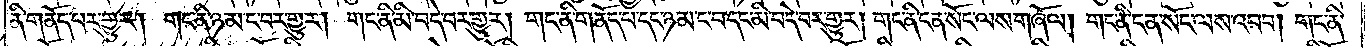ནི་གནོད་པར་གྱུར། གང་ནི་ཉམ་ང་བར་གྱུར། གང་ནི་མི་བདེ་བར་གྱུར། གང་ནི་གནོད་པ་དང་ཉམ་ང་བ་དང་མི་བདེ་བར་གྱུར། གང་ནི་ངན་སོང་ལས་གཞོལ། གང་ནི་ངན་སོང་ལས་འབབ། གང་ནི་
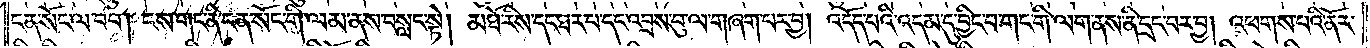ངན་སོང་ལ་བབ། ངས་གང་ནི་ངན་སོང་གི་ལམ་ནས་བསླང་སྟེ། མཐོ་རིས་དང་ཐར་པ་དང་འབྲས་བུ་ལ་གཞག་པར་བྱ། འདོད་པའི་འདམ་དུ་བྱིང་བ་གང་གི་ལག་ནས་ནི་དྲང་བར་བྱ། འཕགས་པའི་ནོར་
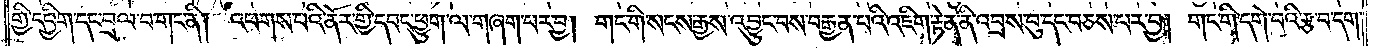གྱི་དབྱིག་དང་བྲལ་བ་གང་ནི། འཕགས་པའི་ནོར་གྱི་དབང་ཕྱུག་ལ་གཞག་པར་བྱ། གང་གི་སངས་རྒྱས་འབྱུང་བས་བརྒྱན་པའི་འཇིག་རྟེན་ནི་འབྲས་བུ་དང་བཅས་པར་བྱ། གང་གི་དགེ་བའི་རྩ་བ་དག་
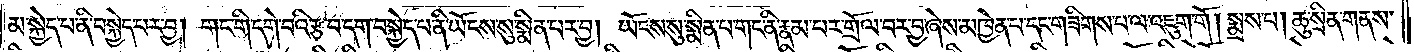མ་སྐྱེད་པ་ནི་བསྐྱེད་པར་བྱ། གང་གི་དགེ་བའི་རྩ་བ་དག་བསྐྱེད་པ་ནི་ཡོངས་སུ་སྨིན་པར་བྱ། ཡོངས་སུ་སྨིན་པ་གང་ནི་རྣམ་པར་གྲོལ་བར་བྱ་ཞེས་མཁྱེན་པ་དང་གཟིགས་པ་ལ་འཇུག་གོ། སྨྲས་པ། ཆུ་སྲིན་གནས་
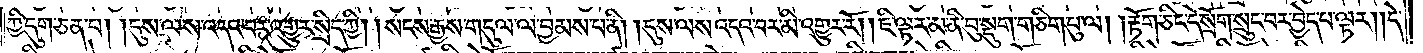ཀྱི་དུག་ཅན་པ། །དུས་ལས་འདའ་བར་འགྱུར་སྲིད་ཀྱི། །སངས་རྒྱས་གདུལ་ལ་བྱམས་པ་ནི། །དུས་ལས་འདའ་བར་མི་འགྱུར་རོ། །ཇི་ལྟར་མ་ནི་བུ་སྡུག་གཅིག་པུ་ལ། །རྟོག་ཅིང་དེ་སྲོག་སྲུང་བར་བྱེད་པ་ལྟར། །དེ་
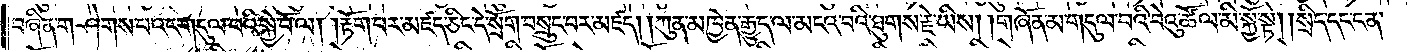བཞིན་གཤེགས་པ་འང་གདུལ་བའི་སྐྱེ་བོ་ལ། །རྟོག་པར་མཛད་ཅིང་དེ་སྲོག་བསྲུང་བར་མཛད། །ཀུན་མཁྱེན་རྒྱུད་ལ་མངའ་བའི་ཐུགས་རྗེ་ཡིས། །གཞོན་མ་གདུལ་བའི་བེའུ་ཚོལ་མི་སྐྱོ་སྟེ། །སྲིད་དང་ངན་
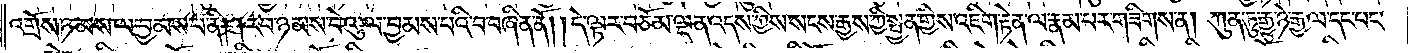འགྲོས་ཉམས་ལ་བྱམས་པ་ནི། །རབ་ཉམས་བེའུ་ལ་བྱམས་པའི་བ་བཞིན་ནོ། །དེ་ལྟར་བཅོམ་ལྡན་འདས་ཀྱིས་སངས་རྒྱས་ཀྱི་སྤྱན་གྱིས་འཇིག་རྟེན་ལ་རྣམ་པར་གཟིགས་ན། ཀུན་ཏུ་རྒྱུ་ཉེ་རྒྱལ་དང་པང་
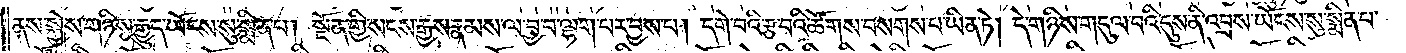ནས་སྐྱེས་གཉིས་རྒྱུད་ཡོངས་སུ་སྨིན་པ། སྔོན་གྱི་སངས་རྒྱས་རྣམས་ལ་བྱ་བ་ལྷག་པར་བྱས་པ། དགེ་བའི་རྩ་བའི་ཚོགས་བསགས་པ་ཡིན་ཏེ། དེ་གཉིས་གདུལ་བའི་དུས་ནི་འབྲས་ཡོངས་སུ་སྨིན་པ་
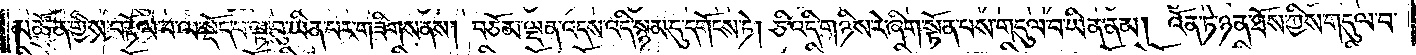མཚོན་གྱིས་བརྟོལ་བ་ལ་སྡོད་པ་ལྟ་བུ་ཡིན་པར་གཟིགས་ནས། བཅོམ་ལྡན་འདས་འདི་སྙམ་དུ་དགོངས་ཏེ། ཅི་འདི་གཉིས་རེ་ཞིག་སྟོན་པས་གདུལ་བ་ཡིན་ནམ། འོན་ཏེ་ཉན་ཐོས་ཀྱིས་གདུལ་བ་
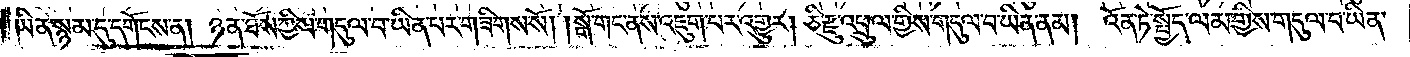ཡིན་སྙམ་དུ་དགོངས་ན། ཉན་ཐོས་ཀྱིས་གདུལ་བ་ཡིན་པར་གཟིགས་སོ། །སྒོ་གང་ནས་འཇུག་པར་འགྱུར། ཅི་རྫུ་འཕྲུལ་གྱིས་གདུལ་བ་ཡིན་ནམ། འོན་ཏེ་སྤྱོད་ལམ་གྱིས་གདུལ་བ་ཡིན་
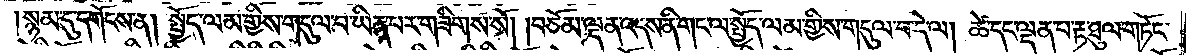སྙམ་དུ་དགོངས་ན། སྤྱོད་ལམ་གྱིས་གདུལ་བ་ཡིན་པར་གཟིགས་སོ། །བཅོམ་ལྡན་འདས་ནི་གང་ལ་སྤྱོད་ལམ་གྱིས་གདུལ་བ་དེ་ལ། ཚེ་དང་ལྡན་པ་རྟ་ཐུལ་གཏོང་
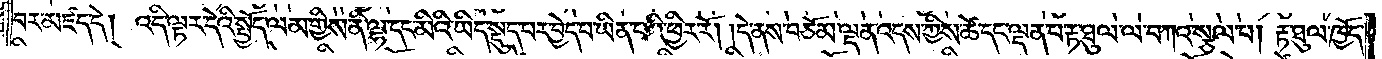བར་མཛད་དེ། འདི་ལྟར་དེའི་སྤྱོད་ལམ་གྱིས་ནི་ལྷ་དང་མིའི་ཡིད་སྡུད་པར་བྱེད་པ་ཡིན་པའི་ཕྱིར་རོ། །དེ་ནས་བཅོམ་ལྡན་འདས་ཀྱིས་ཚེ་དང་ལྡན་པ་རྟ་ཐུལ་ལ་བཀའ་སྩལ་པ། རྟ་ཐུལ་ཁྱོད་
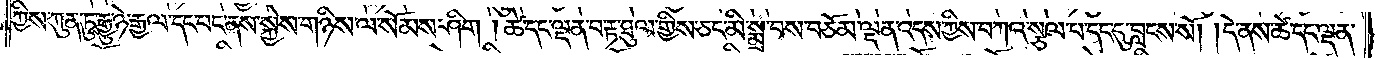ཀྱིས་ཀུན་ཏུ་རྒྱུ་ཉེ་རྒྱལ་དང་པང་ནས་སྐྱེས་གཉིས་ལ་སོམས་ཤིག །ཚེ་དང་ལྡན་བ་རྟ་ཐུལ་གྱིས་ཅང་མི་སྨྲ་བས་བཅོམ་ལྡན་འདས་ཀྱིས་བཀའ་སྩལ་པ་དང་དུ་བླངས་སོ། །དེ་ནས་ཚེ་དང་ལྡན་
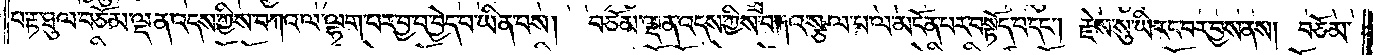པ་རྟ་ཐུལ་བཅོམ་ལྡན་འདས་ཀྱིས་བཀའ་ལ་ལྷག་པར་བྱ་བ་བྱེད་པ་ཡིན་པས། བཅོམ་ལྡན་འདས་ཀྱིས་བཀའ་སྩལ་པ་ལ་མངོན་པར་བསྟོད་པ་དང༌། རྗེས་སུ་ཡི་རང་བར་བྱས་ནས། བཅོམ་
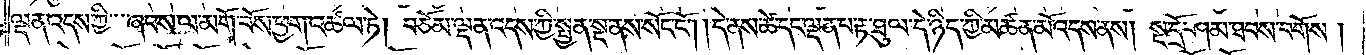ལྡན་འདས་ཀྱི་ཞབས་ལ་མགོ་བོས་ཕྱག་འཚལ་ཏེ། བཅོམ་ལྡན་འདས་ཀྱི་སྤྱན་སྔ་ནས་སོང་ངོ༌། །དེ་ནས་ཚེ་དང་ལྡན་པ་རྟ་ཐུལ་དེ་ཉིད་ཀྱི་མཚན་མོ་འདས་ནས། སྔ་དྲོ་ཤམ་ཐབས་བགོས།
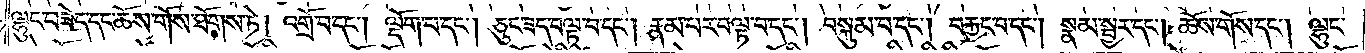ལྷུང་བཟེད་དང་ཆོས་གོས་ཐོགས་ཏེ། འགྲོ་བ་དང༌། ལྡོག་པ་དང༌། ཅུང་ཟད་བལྟ་བ་དང༌། རྣམ་པར་བལྟ་བ་དང༌། བསྐུམ་པ་དང༌། བརྐྱང་བ་དང༌། སྣམ་སྦྱར་དང༌། ཆོས་གོས་དང༌། ལྷུང་
